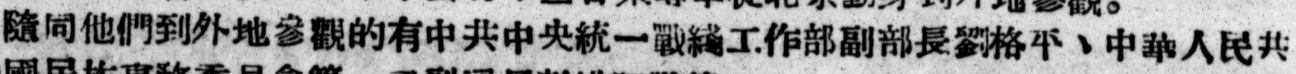隨同他們到外地參觀的有中共中央統一戰綫工作部副部長劉格平、中華人民共
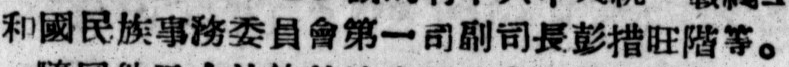和國民族事務委員會第一司副司長彭措旺階等。
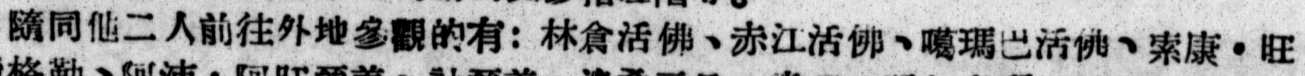隨同他二人前往外地參觀的有：林倉活佛、赤江活佛、噶瑪巴活佛、索康・旺
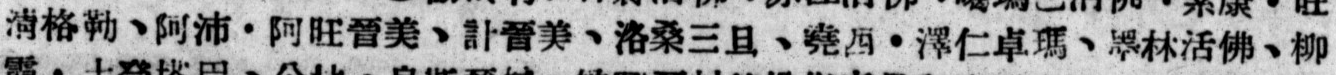清格勒、阿沛・阿旺晉美、計晉美、洛桑三旦、堯西・澤仁卓瑪、旻林活佛、柳
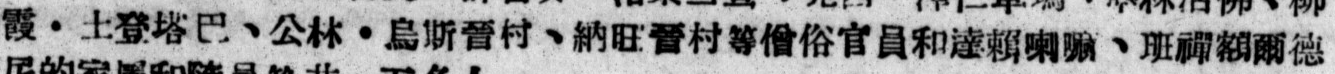霞・土登塔巴、公林・烏斯晉村、納旺晉村等僧俗官員和達賴喇嘛、班禪額爾德
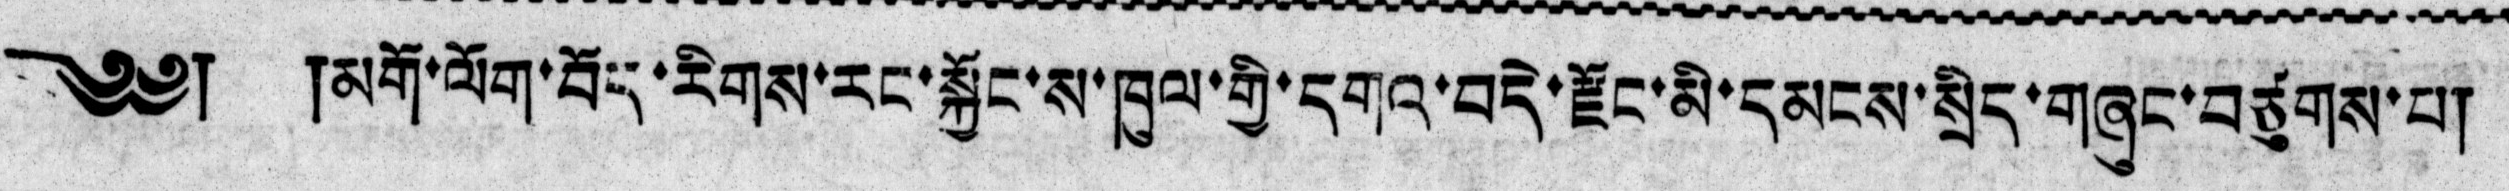༄༅། །མགོ་ལོག་བོད་རིགས་རང་སྐྱོང་ས་ཁུལ་གྱི་དགའ་བདེ་རྫོང་མི་དམངས་སྲིད་གཞུང་བཙུགས་པ།
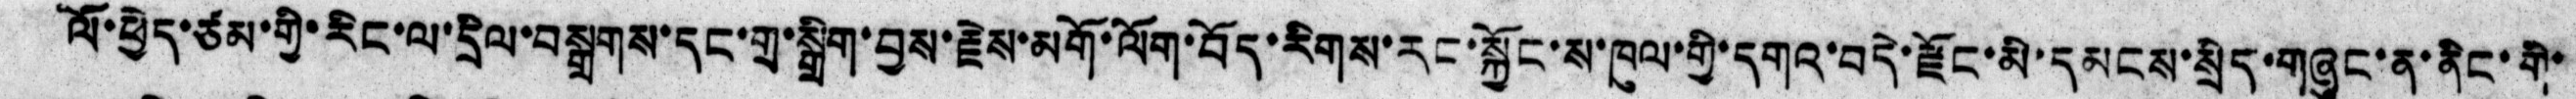ལོ་ཕྱེད་ཙམ་གྱི་རིང་ལ་དྲིལ་བསྒྲགས་དང་གྲ་སྒྲིག་བྱས་རྗེས་མགོ་ལོག་བོད་རིགས་རང་སྐྱོང་ས་ཁུལ་གྱི་དགའ་བདེ་རྫོང་མི་དམངས་སྲིད་གཞུང་ན་ནིང་གི་
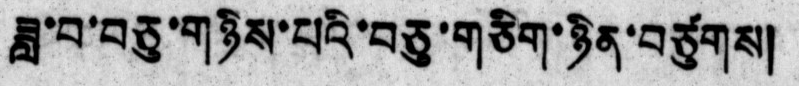ཟླ་བ་བཅུ་གཉིས་པའི་བཅུ་གཅིག་ཉིན་བཙུགས།
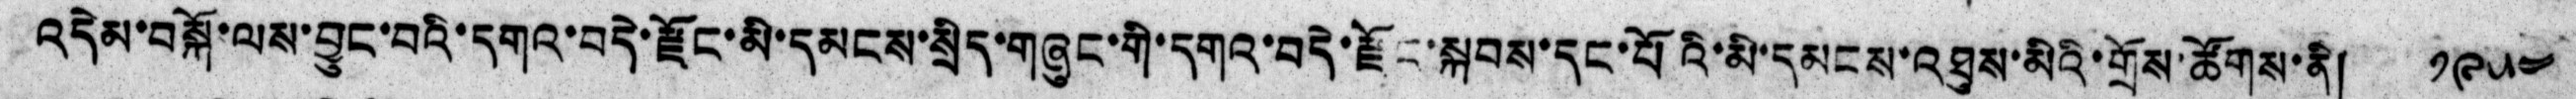འདེམ་བསྐོ་ལས་བྱུང་བའི་དགའ་བདེ་རྫོང་མི་དམངས་སྲིད་གཞུང་གི་དགའ་བདེ་རྫོང་སྐབས་དང་པོའི་མི་དམངས་འཐུས་མིའི་གྲོས་ཚོགས་ནི། ༡༩༥༤
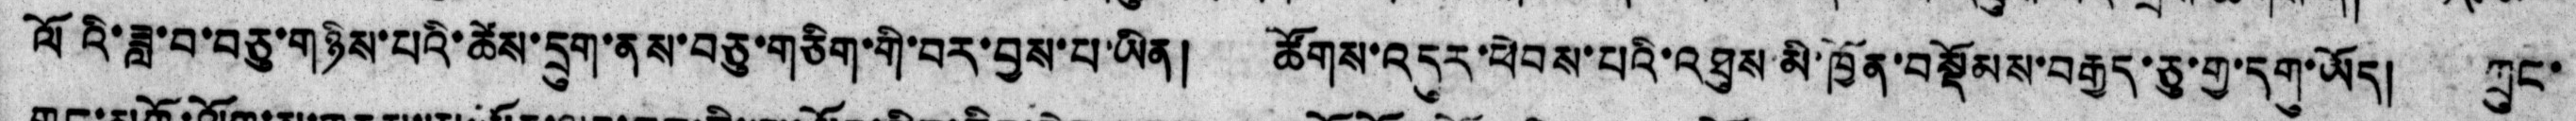ལོའི་ཟླ་བ་བཅུ་གཉིས་པའི་ཚེས་དྲུག་ནས་བཅུ་གཅིག་གི་བར་བྱས་པ་ཡིན། ཚོགས་འདུར་ཕེབས་པའི་འཐུས་མི་ཁྱོན་བསྡོམས་བརྒྱད་ཅུ་གྱ་དགུ་ཡོད། ཀྲུང་
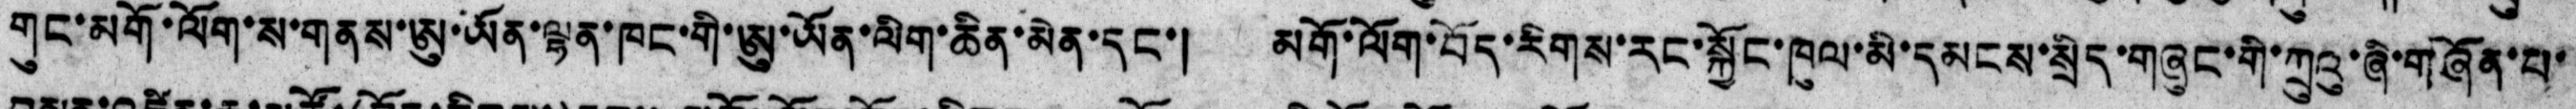གུང་མགོ་ལོག་ས་གནས་ཨུ་ཡོན་ལྷན་ཁང་གི་ཨུ་ཡོན་ལིག་ཆིན་མེན་དང་། མགོ་ལོག་བོད་རིགས་རང་སྐྱོང་ཁུལ་མི་དམངས་སྲིད་གཞུང་གི་ཀྲུའུ་ཞི་གཞོན་པ་
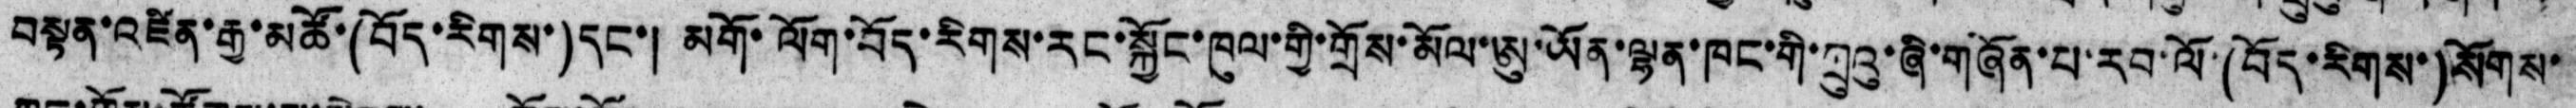སྟན་འཛིན་རྒྱ་མཚོ་(བོད་རིགས་)དང་། མགོ་ལོག་བོད་རིགས་རང་སྐྱོང་ཁུལ་གྱི་གྲོས་མོལ་ཨུ་ཡོན་ལྷན་ཁང་གི་ཀྲུའུ་ཞི་གཞོན་པ་རབ་ལོ་(བོད་རིགས་)སོགས་་
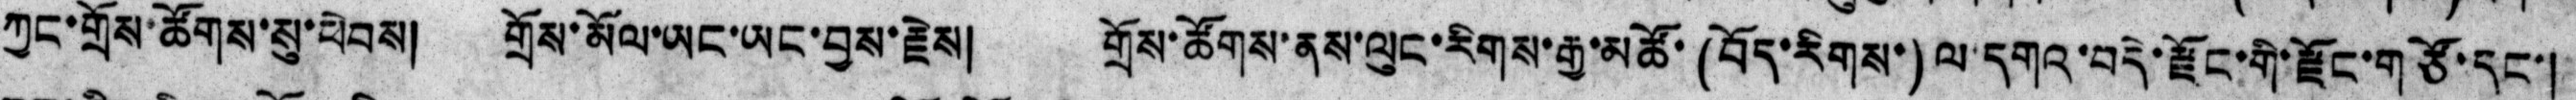ཀྱང་གྲོས་ཚོགས་སུ་ཕེབས། གྲོས་མོལ་ཡང་ཡང་བྱས་རྗེས། གྲོས་ཚོགས་ནས་ལུང་རིགས་རྒྱ་མཚོ་(བོད་རིགས་)ལ་དགའ་བདེ་རྫོང་གི་རྫོང་གཙོ་དང་།
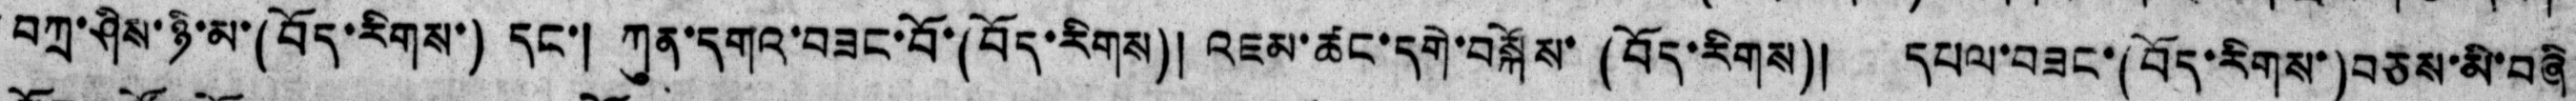བཀྲ་ཤིས་ཉི་མ་(བོད་རིགས་)དང་། ཀུན་དགའ་བཟང་བོ་(བོད་རིགས)།  འཇམ་ཚང་དགེ་བསྐོས་(བོད་རིགས)། དཔལ་བཟང་(བོད་རིགས་)བཅས་མི་བཞི
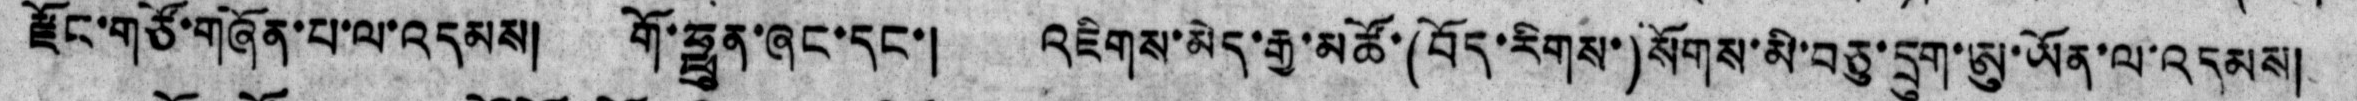རྫོང་གཙོ་གཞོན་པ་ལ་འདམས། གོ་ཧྥུན་ཞང་དང་། འཇིགས་མེད་རྒྱ་མཚོ་(བོད་རིགས་)སོགས་མི་བཅུ་དྲུག་ཨུ་ཡོན་ལ་འདམས།
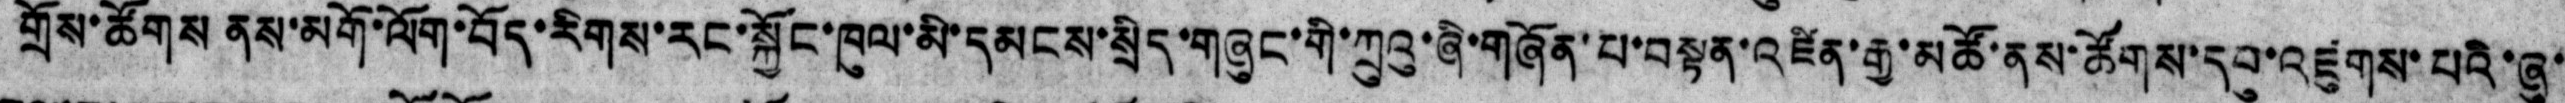གྲོས་ཚོགས ནས་མགོ་ལོག་བོད་རིགས་རང་སྐྱོང་ཁུལ་མི་དམངས་སྲིད་གཞུང་གི་ཀྲུའུ་ཞི་གཞོན་པ་བསྟན་འཛིན་རྒྱ་མཚོ་ནས་ཚོགས་དབ་འཛུགས་པའི་ཞུ་
